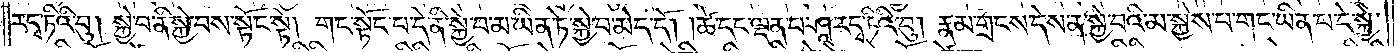ར་དྭ་ཏིའི་བུ། སྐྱེ་བ་ནི་སྐྱེ་བས་སྟོང་སྟེ། གང་སྟོང་པ་དེ་ནི་སྐྱེ་བ་མ་ཡིན་ཏེ་སྐྱེ་བ་མེད་དོ། །ཚེ་དང་ལྡན་པ་ཤཱ་ར་དྭ་ཏིའི་བུ། རྣམ་གྲངས་དེས་ན་སྐྱེ་བའི་མ་སྐྱེས་པ་གང་ཡིན་པ་དེ་སྐྱེ་
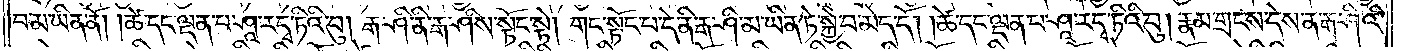བ་མ་ཡིན་ནོ། །ཚེ་དང་ལྡན་པ་ཤཱ་ར་དྭ་ཏིའི་བུ། རྒ་ཤི་ནི་རྒ་ཤིས་སྟོང་སྟེ། གང་སྟོང་པ་དེ་ནི་རྒ་ཤི་མ་ཡིན་ཏེ་སྐྱེ་བ་མེད་དོ། །ཚེ་དང་ལྡན་པ་ཤཱ་ར་དྭ་ཏིའི་བུ། རྣམ་གྲངས་དེས་ན་རྒ་ཤིའི་
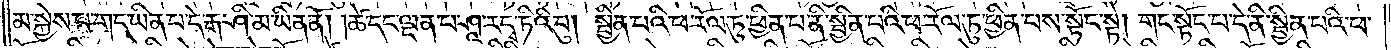མ་སྐྱེས་པ་གང་ཡིན་པ་དེ་རྒ་ཤི་མ་ཡིན་ནོ། ཚེ་དང་ལྡན་པ་ཤཱ་ར་དྭ་ཏིའི་བུ། སྦྱིན་པའི་ཕ་རོལ་ཏུ་ཕྱིན་པ་ནི་སྦྱིན་པའི་ཕ་རོལ་ཏུ་ཕྱིན་པས་སྟོང་སྟེ། གང་སྟོང་པ་དེ་ནི་སྦྱིན་པའི་ཕ་
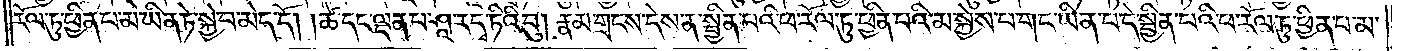རོལ་ཏུ་ཕྱིན་པ་མ་ཡིན་ཏེ་སྐྱེ་བ་མེད་དོ། །ཚེ་དང་ལྡན་པ་ཤཱ་ར་དྭ་ཏིའི་བུ། རྣམ་གྲངས་དེས་ན་སྦྱིན་པའི་ཕ་རོལ་ཏུ་ཕྱིན་པའི་མ་སྐྱེས་པ་གང་ཡིན་པ་དེ་སྦྱིན་པའི་ཕ་རོལ་ཏུ་ཕྱིན་པ་མ་
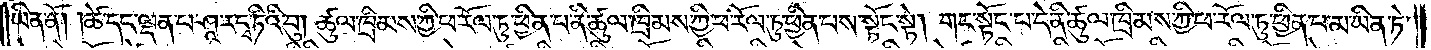ཡིན་ནོ། །ཚེ་དང་ལྡན་པ་ཤཱ་ར་དྭ་ཏིའི་བུ། ཚུལ་ཁྲིམས་ཀྱི་ཕ་རོལ་ཏུ་ཕྱིན་པ་ནི་ཚུལ་ཁྲིམས་ཀྱི་ཕ་རོལ་ཏུ་ཕྱིན་པས་སྟོང་སྟེ། གང་སྟོང་པ་དེ་ནི་ཚུལ་ཁྲིམས་ཀྱི་ཕ་རོལ་ཏུ་ཕྱིན་པ་མ་ཡིན་ཏེ་
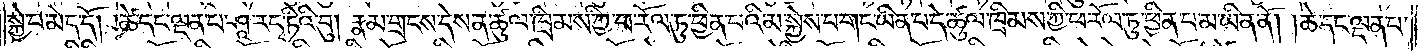སྐྱེ་བ་མེད་དོ། །ཚེ་དང་ལྡན་པ་ཤཱ་ར་དྭ་ཏིའི་བུ། རྣམ་གྲངས་དེས་ན་ཚུལ་ཁྲིམས་ཀྱི་ཕ་རོལ་ཏུ་ཕྱིན་པའི་མ་སྐྱེས་པ་གང་ཡིན་པ་དེ་ཚུལ་ཁྲིམས་ཀྱི་ཕ་རོལ་ཏུ་ཕྱིན་པ་མ་ཡིན་ནོ། །ཚེ་དང་ལྡན་པ་
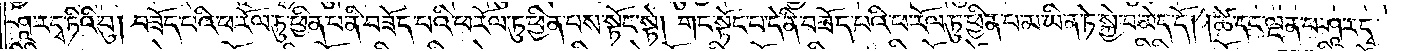ཤཱ་ར་དྭ་ཏིའི་བུ། བཟོད་པའི་ཕ་རོལ་ཏུ་ཕྱིན་པ་ནི་བཟོད་པའི་ཕ་རོལ་ཏུ་ཕྱིན་པས་སྟོང་སྟེ། གང་སྟོང་པ་དེ་ནི་བཟོད་པའི་ཕ་རོལ་ཏུ་ཕྱིན་པ་མ་ཡིན་ཏེ་སྐྱེ་བ་མེད་དོ། །ཚེ་དང་ལྡན་པ་ཤཱ་ར་དྭ་
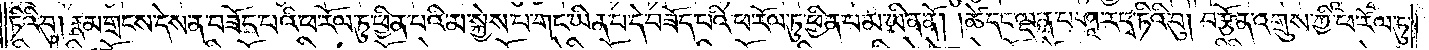ཏིའི་བུ། རྣམ་གྲངས་དེས་ན་བཟོད་པའི་ཕ་རོལ་ཏུ་ཕྱིན་པའི་མ་སྐྱེས་པ་གང་ཡིན་པ་དེ་བཟོད་པའི་ཕ་རོལ་ཏུ་ཕྱིན་པ་མ་ཡིན་ནོ། །ཚེ་དང་ལྡན་པ་ཤཱ་ར་དྭ་ཏིའི་བུ། བརྩོན་འགྲུས་ཀྱི་ཕ་རོལ་ཏུ་
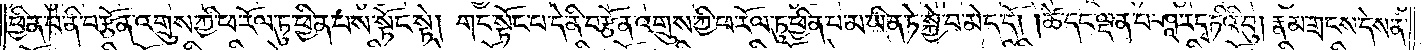ཕྱིན་པ་ནི་བརྩོན་འགྲུས་ཀྱི་ཕ་རོལ་ཏུ་ཕྱིན་པས་སྟོང་སྟེ། གང་སྟོང་པ་དེ་ནི་བརྩོན་འགྲུས་ཀྱི་ཕ་རོལ་ཏུ་ཕྱིན་པ་མ་ཡིན་ཏེ་སྐྱེ་བ་མེད་དོ། ཚེ་དང་ལྡན་པ་ཤཱ་ར་དྭ་ཏིའི་བུ། རྣམ་གྲངས་དེས་ན་
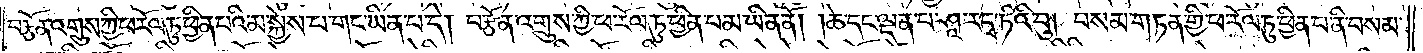བརྩོན་འགྲུས་ཀྱི་ཕ་རོལ་ཏུ་ཕྱིན་པའི་མ་སྐྱེས་པ་གང་ཡིན་པ་དེ། བརྩོན་འགྲུས་ཀྱི་ཕ་རོལ་ཏུ་ཕྱིན་པ་མ་ཡིན་ནོ། ཚེ་དང་ལྡན་པ་ཤཱ་ར་དྭ་ཏིའི་བུ། བསམ་གཏན་གྱི་ཕ་རོལ་ཏུ་ཕྱིན་པ་ནི་བསམ་
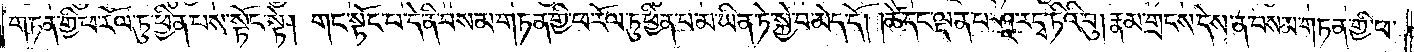གཏན་གྱི་ཕ་རོལ་ཏུ་ཕྱིན་པས་སྟོང་སྟེ། གང་སྟོང་པ་དེ་ནི་བསམ་གཏན་གྱི་ཕ་རོལ་ཏུ་ཕྱིན་པ་མ་ཡིན་ཏེ་སྐྱེ་བ་མེད་དོ། ཚེ་དང་ལྡན་པ་ཤཱ་ར་དྭ་ཏིའི་བུ། རྣམ་གྲངས་དེས་ན་བསམ་གཏན་གྱི་ཕ་
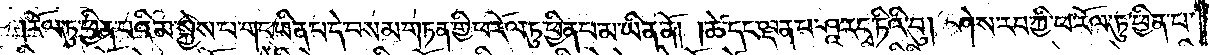རོལ་ཏུ་ཕྱིན་པའི་མ་སྐྱེས་པ་གང་ཡིན་པ་དེ་བསམ་གཏན་གྱི་ཕ་རོལ་ཏུ་ཕྱིན་པ་མ་ཡིན་ནོ། །ཚེ་དང་ལྡན་པ་ཤཱ་ར་དྭ་ཏིའི་བུ། ཤེས་རབ་ཀྱི་ཕ་རོལ་ཏུ་ཕྱིན་པ་
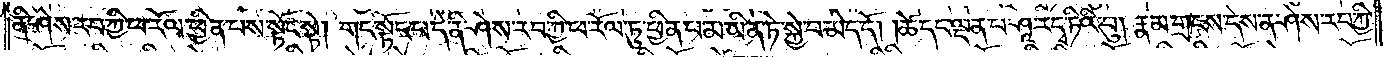ནི་ཤེས་རབ་ཀྱི་ཕ་རོལ་ཏུ་ཕྱིན་པས་སྟོང་སྟེ། གང་སྟོང་པ་དེ་ནི་ཤེས་རབ་ཀྱི་ཕ་རོལ་ཏུ་ཕྱིན་པ་མ་ཡིན་ཏེ་སྐྱེ་བ་མེད་དོ། །ཚེ་དང་ལྡན་པ་ཤཱ་ར་དྭ་ཏིའི་བུ། རྣམ་གྲངས་དེས་ན་ཤེས་རབ་ཀྱི་
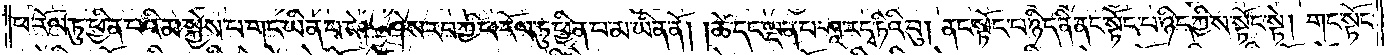ཕ་རོལ་ཏུ་ཕྱིན་པའི་མ་སྐྱེས་པ་གང་ཡིན་པ་དེ། ཤེས་རབ་ཀྱི་ཕ་རོལ་ཏུ་ཕྱིན་པ་མ་ཡིན་ནོ། །ཚེ་དང་ལྡན་པ་ཤཱ་ར་དྭ་ཏིའི་བུ། ནང་སྟོང་པ་ཉིད་ནི་ནང་སྟོང་པ་ཉིད་ཀྱིས་སྟོང་སྟེ། གང་སྟོང་
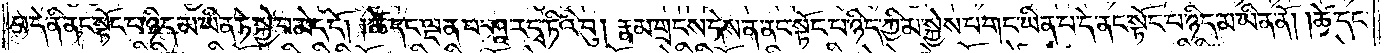པ་དེ་ནི་ནང་སྟོང་པ་ཉིད་མ་ཡིན་ཏེ་སྐྱེ་བ་མེད་དོ། །ཚེ་དང་ལྡན་པ་ཤཱ་ར་དྭ་ཏིའི་བུ། རྣམ་གྲངས་དེས་ན་ནང་སྟོང་པ་ཉིད་ཀྱི་མ་སྐྱེས་པ་གང་ཡིན་པ་དེ་ནང་སྟོང་པ་ཉིད་མ་ཡིན་ནོ། །ཚེ་དང་
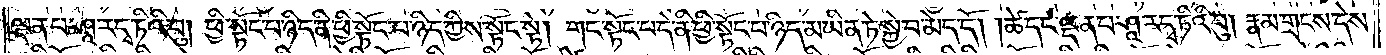ལྡན་པ་ཤཱ་ར་དྭ་ཏིའི་བུ། ཕྱི་སྟོང་པ་ཉིད་ནི་ཕྱི་སྟོང་པ་ཉིད་ཀྱིས་སྟོང་སྟེ། གང་སྟོང་པ་དེ་ནི་ཕྱི་སྟོང་པ་ཉིད་མ་ཡིན་ཏེ་སྐྱེ་བ་མེད་དོ། །ཚེ་དང་ལྡན་པ་ཤཱ་ར་དྭ་ཏིའི་བུ། རྣམ་གྲངས་དེས་
